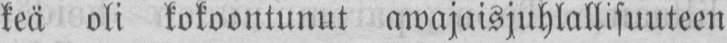keä oli kokoontunut awajaisjuhlallisuuteen
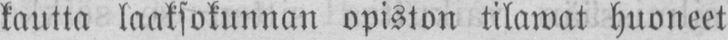kautta laaksokunnan opiston tilawat huoneet
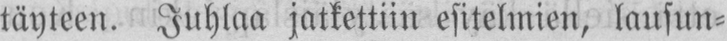täyteen. Juhlaa jatkettiin esitelmien, lausun-
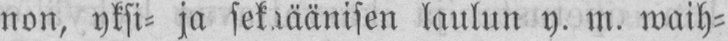non, yksi- ja sekaäänisen laulun y. m. waih-
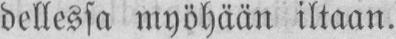dellessa myöhään iltaan.
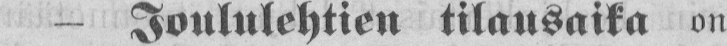— Joululehtien tilausaika on
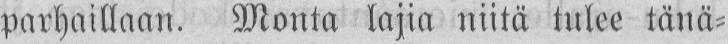parhaillaan. Monta lajia niitä tulee tänä-
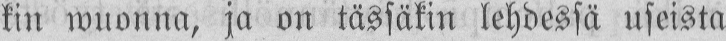kin wuonna, ja on tässäkin lehdessä useista
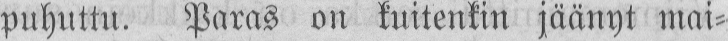puhuttu. Paras on kuitenkin jäänyt mai-
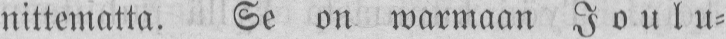nittematta. Se on warmaan Joulu-
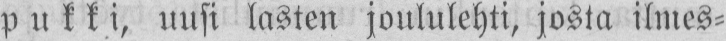pukki, uusi lasten joululehti, josta ilmes-
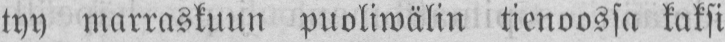tyy marraskuun puoliwälin tienoossa kaksi
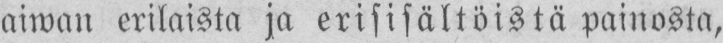aiwan erilaista ja erisisältöistä painosta,
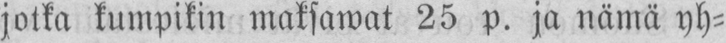jotka kumpikin maksawat 25 p. ja nämä yh-
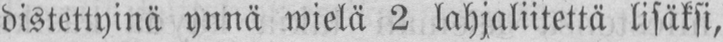distettyinä ynnä wielä 2 lahjaliitettä lisäksi,
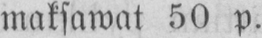maksawat 50 p.
